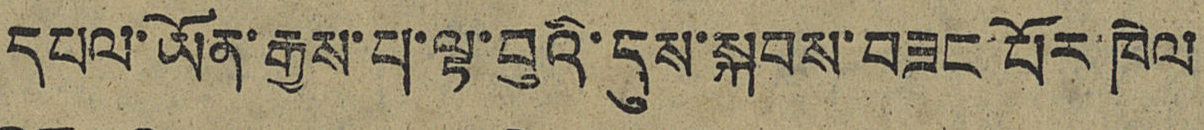དཔལ་ཡོན་རྒྱས་པ་ལྟ་བུའི་དུས་སྐབས་བཟང་པོར་ཁེལ
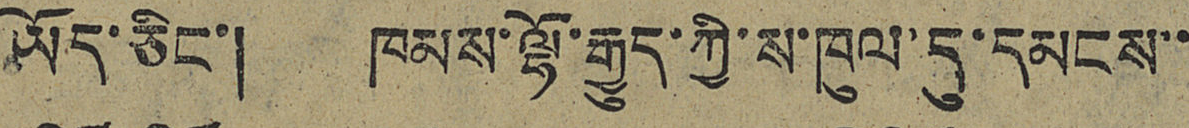ཡོད་ཅིང་། ཁམས་ལྷོ་རྒྱུད་ཀྱི་ས་ཁུལ་དུ་དམངས་་
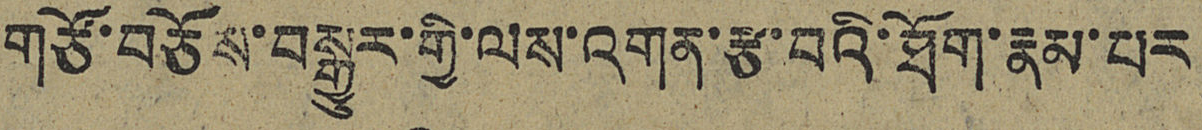གཙོ་བཅོས་བསྒྱུར་གྱི་ལས་འགན་རྩ་བའི་ཐོག་རྣམ་པར
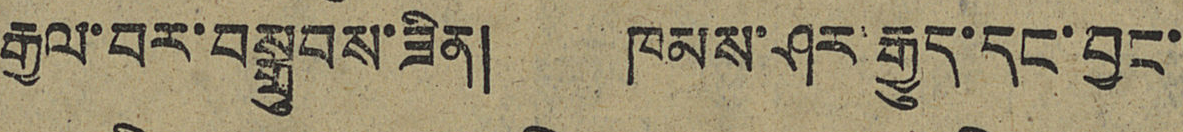རྒྱལ་བར་བསྒྲུབས་ཟིན། ཁམས་ཤར་རྒྱུད་དང་བྱང་
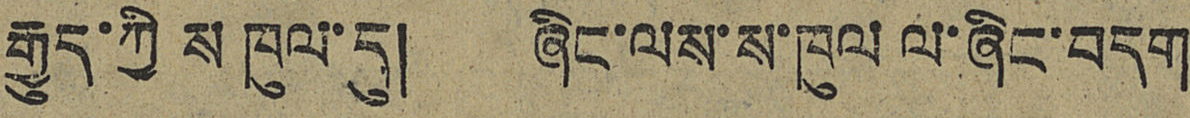རྒྱུད་ཀྱི ས ཁུལ་དུ། ཞིང་ལས་ས་ཁུལ་ལ་ཞིང་བདག
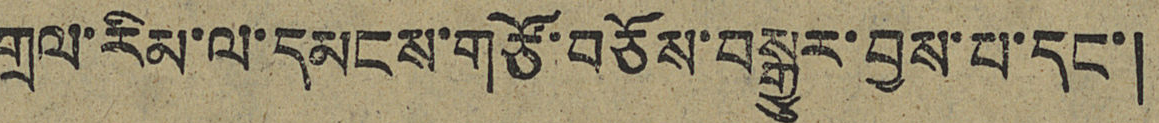གྲལ་རིམ་ལ་དམངས་གཙོ་བཅོས་བསྒྱུར་བྱས་པ་དང་།
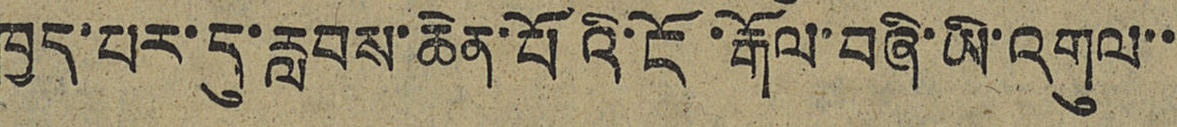ཁྱད་པར་དུ་རླབས་ཆེན་པོའི་ངོ་རྒོལ་བཞི་ཡི་འགུལ་་
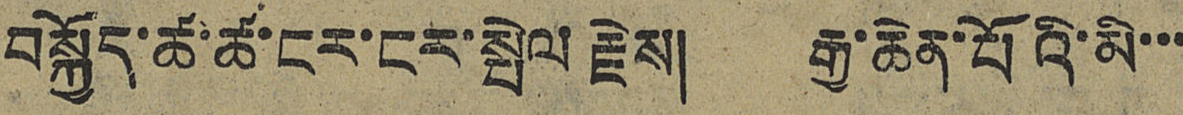བསྐྱོད་ཚ་ཚ་ངར་ངར་སྤེལ རྗེས། རྒྱ་ཆེན་པོའི་མི་་་
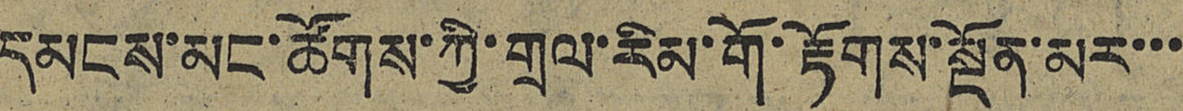དམངས་མང་ཚོགས་ཀྱི་གྲལ་རིམ་གོ་རྟོགས་སྔོན་མར་་་
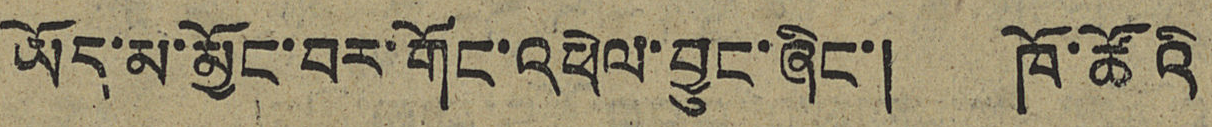ཡོད་མ་མྱོང་བར་གོང་འཕེལ་བྱུང་ཞིང་། ཁོ་ཚོའི
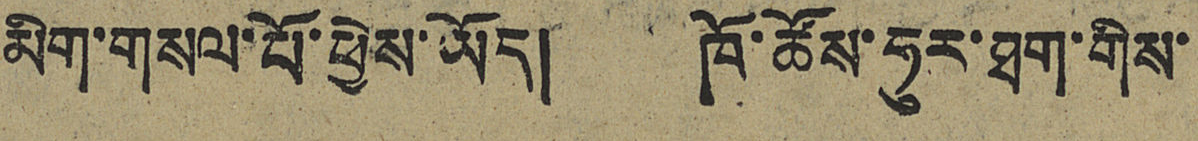མིག་གསལ་པོ་ཕྱེས་ཡོད། ཁོ་ཚོས་ཧུར་ཐག་གིས་
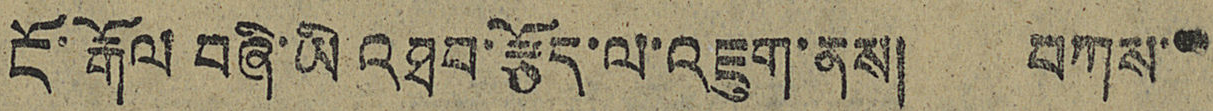ངོ་རྒོལ བཞི་ཡི འཐབ་རྩོད་ལ་འཇུག་ནས། བཀས་་
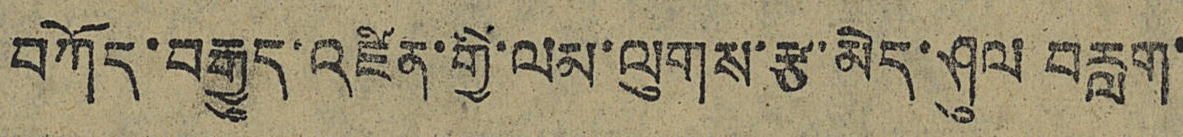བཀོད་བརྒྱུད་འཛིན་གྱི་ལམ་ལུགས་རྩ་མེད་ཤུལ བརླག་
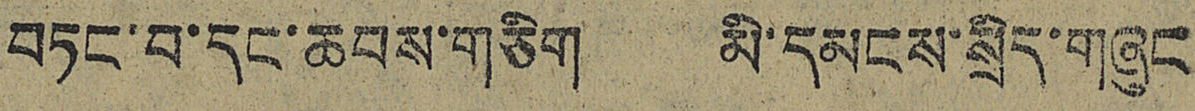བཏང་བ་དང་ཆབས་གཅིག མི་དམངས་སྲིད་གཞུང
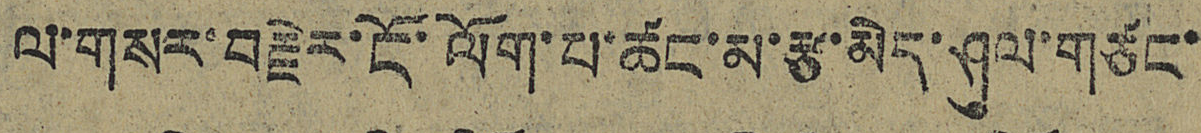ལ་གསར་བརྗེར་ངོ་ལོག་པ་ཚང་མ་རྩ་མེད་ཤུལ་གཙང་
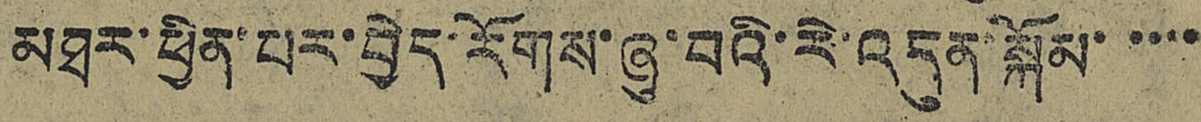མཐར་ཕྱིན་པར་བྱེད་རོགས་ཞུ་བའི་རེ་འདུན་སྐོམ་་་་་
